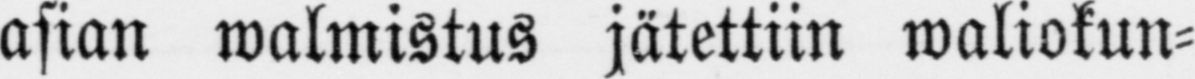asian walmistus jätettiin waliokun-
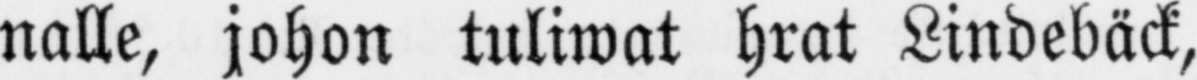nalle, johon tuliwat hrat Lindebäck,
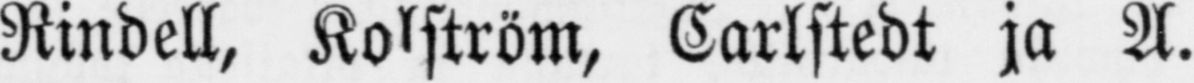Rindell, Kolström, Carlstedt ja A.
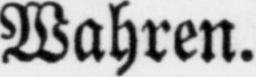Wahren.
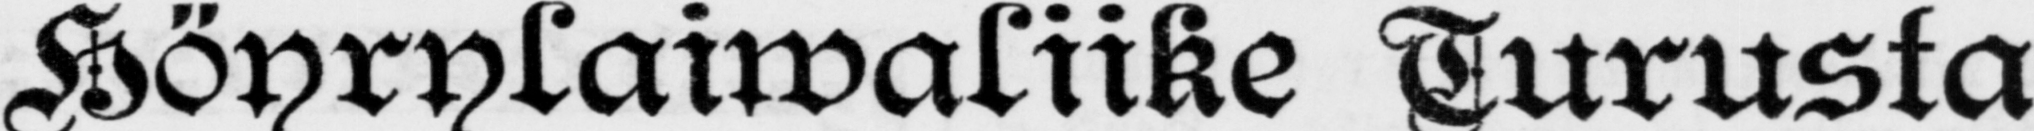Höyrylaiwaliike Turusta
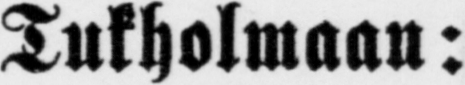Tukholmaan:
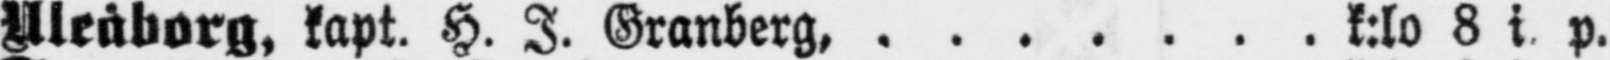Uleåborg, kapt. H. I. Granberg,....... K:lo 8 i. p.
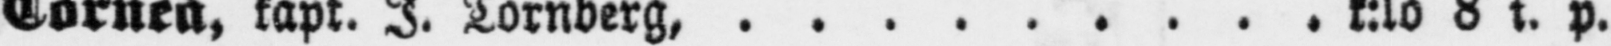Torneå kapt. I. Tornderg,......... k:lo 8 i. p.
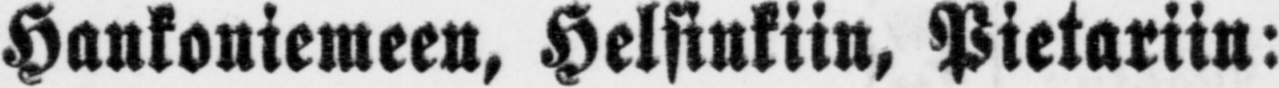Hankoniemeen, Helsinkiin, Pietariin:
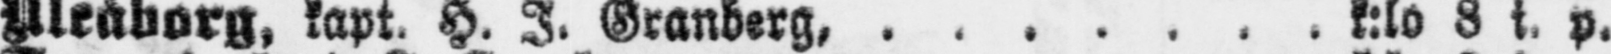Uleåborg, kapt. H. I. Granberg,....... k:lo 8 i. p.
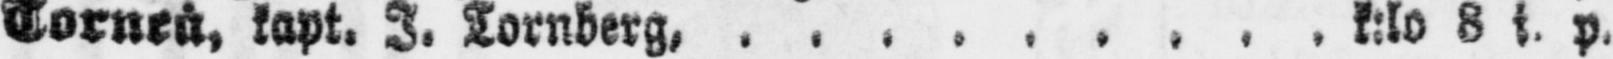Torneå. kapt. I. Tornberg,......... k:lo 8 i. p.
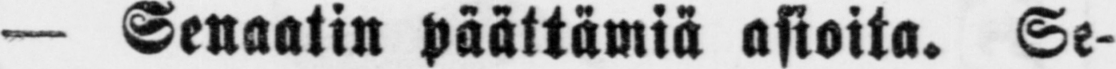— Senaatin päättämiä asioita. Se-
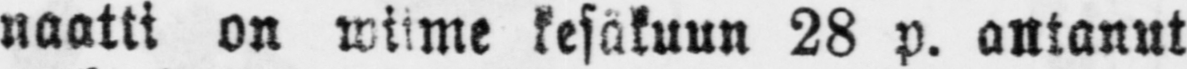naatti on wiime kesäkuun 28 p. antanut
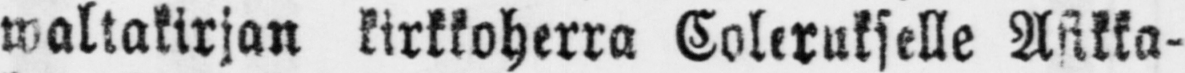waltakirjan kirkkoherra Colerukselle Asikka-
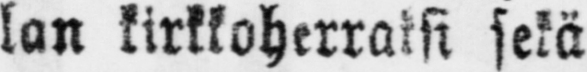lan kirkkoherraksi sekä
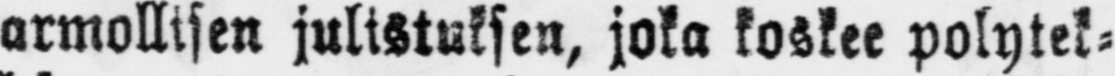armollisen julistuksen, joka koskee polytek-
